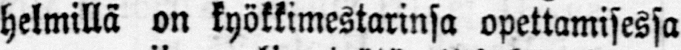helmillä on kyökkimestarinsa opettamisessa
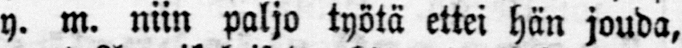y. m. niin paljo työtä ettei hän jouda,
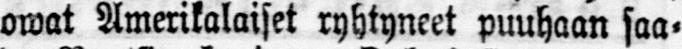owat Amerikalaiset ryhtyneet puuhaan saa-
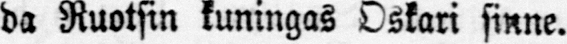da Ruotsin kuningas Oskari sinne.
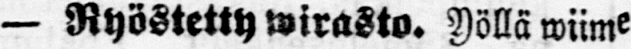— Ryöstetty wirasto. Yöllä wiime
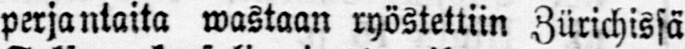perjantaita wastaan ryöstettiin Zürichissä
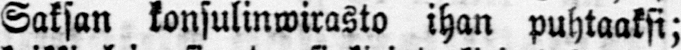Saksan konsulinwirasto ihan puhtaaksi;
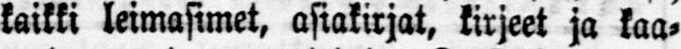kaikki leimasimet, asiakirjat, kirjeet ja kaa-
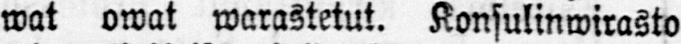wat owat warastetut. Konsulinwirasto
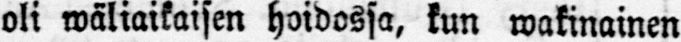oli wäliaikaisen hoidossa, kun wakinainen
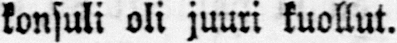konsuli oli juuri kuollut.
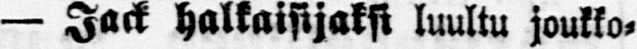— Jack halkaisijaksi luultu joukko-
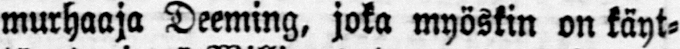murhaaja Deeming, joka myöskin on käyt-
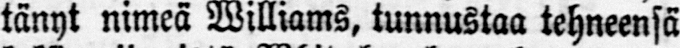tänyt nimeä Williams, tunnustaa tehneensä
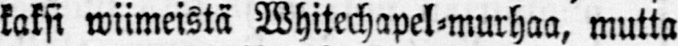kaksi wiimeistä Whitechapel-murhaa, mutta
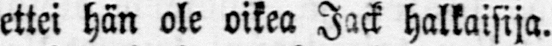ettei hän ole oikea Jack halkaisija.
